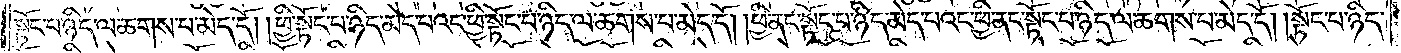སྟོང་པ་ཉིད་ལ་ཆགས་པ་མེད་དོ། །ཕྱི་སྟོང་པ་ཉིད་མེད་པའང་ཕྱི་སྟོང་པ་ཉིད་ལ་ཆགས་པ་མེད་དོ། །ཕྱི་ནང་སྟོང་པ་ཉིད་མེད་པའང་ཕྱི་ནང་སྟོང་པ་ཉིད་ལ་ཆགས་པ་མེད་དོ། །སྟོང་པ་ཉིད་
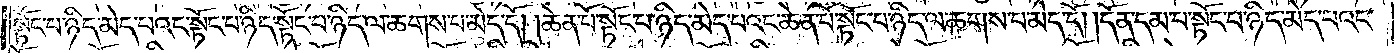སྟོང་པ་ཉིད་མེད་པའང་སྟོང་པ་ཉིད་སྟོང་པ་ཉིད་ལ་ཆགས་པ་མེད་དོ། །ཆེན་པོ་སྟོང་པ་ཉིད་མེད་པའང་ཆེན་པོ་སྟོང་པ་ཉིད་ལ་ཆགས་པ་མེད་དོ། །དོན་དམ་པ་སྟོང་པ་ཉིད་མེད་པའང་
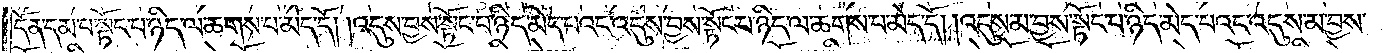དོན་དམ་པ་སྟོང་པ་ཉིད་ལ་ཆགས་པ་མེད་དོ། །འདུས་བྱས་སྟོང་པ་ཉིད་མེད་པའང་འདུས་བྱས་སྟོང་པ་ཉིད་ལ་ཆགས་པ་མེད་དོ། །འདུས་མ་བྱས་སྟོང་པ་ཉིད་མེད་པའང་འདུས་མ་བྱས་
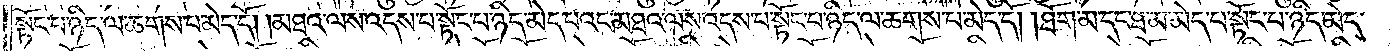སྟོང་པ་ཉིད་ལ་ཆགས་པ་མེད་དོ། །མཐའ་ལས་འདས་པ་སྟོང་པ་ཉིད་མེད་པའང་མཐའ་ལས་འདས་པ་སྟོང་པ་ཉིད་ལ་ཆགས་པ་མེད་དོ། །ཐོག་མ་དང་ཐ་མ་མེད་པ་སྟོང་པ་ཉིད་མེད་
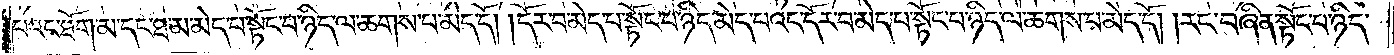པའང་ཐོག་མ་དང་ཐ་མ་མེད་པ་སྟོང་པ་ཉིད་ལ་ཆགས་པ་མེད་དོ། །དོར་བ་མེད་པ་སྟོང་པ་ཉིད་མེད་པའང་དོར་བ་མེད་པ་སྟོང་པ་ཉིད་ལ་ཆགས་པ་མེད་དོ། །རང་བཞིན་སྟོང་པ་ཉིད་
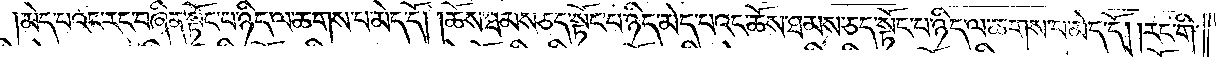མེད་པའང་རང་བཞིན་སྟོང་པ་ཉིད་ལ་ཆགས་པ་མེད་དོ། །ཆོས་ཐམས་ཅད་སྟོང་པ་ཉིད་མེད་པའང་ཆོས་ཐམས་ཅད་སྟོང་པ་ཉིད་ལ་ཆགས་པ་མེད་དོ། །རང་གི་
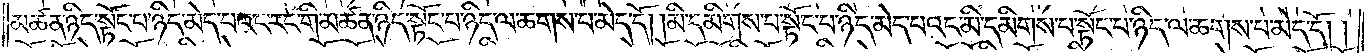མཚན་ཉིད་སྟོང་པ་ཉིད་མེད་པའང་རང་གི་མཚན་ཉིད་སྟོང་པ་ཉིད་ལ་ཆགས་པ་མེད་དོ། །མི་དམིགས་པ་སྟོང་པ་ཉིད་མེད་པའང་མི་དམིགས་པ་སྟོང་པ་ཉིད་ལ་ཆགས་པ་མེད་དོ། །
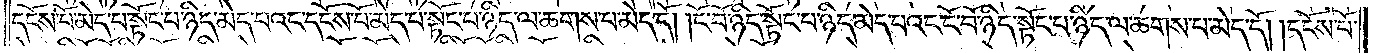དངོས་པོ་མེད་པ་སྟོང་པ་ཉིད་མེད་པའང་དངོས་པོ་མེད་པ་སྟོང་པ་ཉིད་ལ་ཆགས་པ་མེད་དོ། །ངོ་བོ་ཉིད་སྟོང་པ་ཉིད་མེད་པའང་ངོ་བོ་ཉིད་སྟོང་པ་ཉིད་ལ་ཆགས་པ་མེད་དོ། །དངོས་པོ་
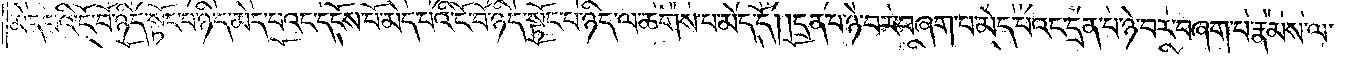མེད་པའི་ངོ་བོ་ཉིད་སྟོང་པ་ཉིད་མེད་པའང་དངོས་པོ་མེད་པའི་ངོ་བོ་ཉིད་སྟོང་པ་ཉིད་ལ་ཆགས་པ་མེད་དོ། །དྲན་པ་ཉེ་བར་བཞག་པ་མེད་པའང་དྲན་པ་ཉེ་བར་བཞག་པ་རྣམས་ལ་
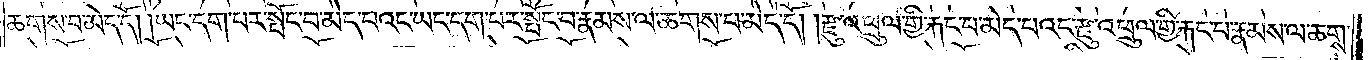ཆགས་པ་མེད་དོ། །ཡང་དག་པར་སྤོང་བ་མེད་པའང་ཡང་དག་པར་སྤོང་བ་རྣམས་ལ་ཆགས་པ་མེད་དོ། རྫུ་འཕྲུལ་གྱི་རྐང་པ་མེད་པའང་རྫུ་འཕྲུལ་གྱི་རྐང་པ་རྣམས་ལ་ཆགས་
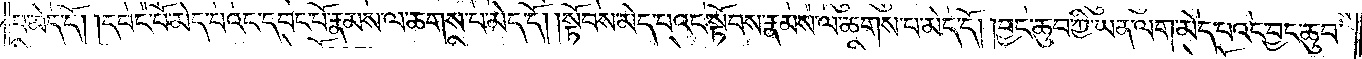པ་མེད་དོ། དབང་པོ་མེད་པའང་དབང་པོ་རྣམས་ལ་ཆགས་པ་མེད་དོ། །སྟོབས་མེད་པའང་སྟོབས་རྣམས་ལ་ཆགས་པ་མེད་དོ། །བྱང་ཆུབ་ཀྱི་ཡན་ལག་མེད་པའང་བྱང་ཆུབ་
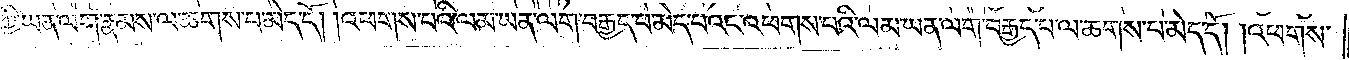ཀྱི་ཡན་ལག་རྣམས་ལ་ཆགས་པ་མེད་དོ། །འཕགས་པའི་ལམ་ཡན་ལག་བརྒྱད་པ་མེད་པའང་འཕགས་པའི་ལམ་ཡན་ལག་བརྒྱད་པ་ལ་ཆགས་པ་མེད་དོ། །འཕགས་
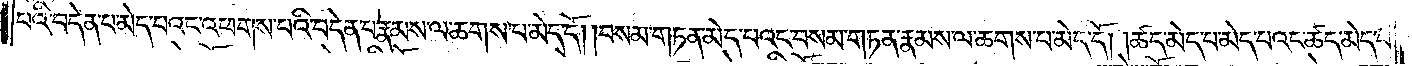པའི་བདེན་པ་མེད་པའང་འཕགས་པའི་བདེན་པ་རྣམས་ལ་ཆགས་པ་མེད་དོ། །བསམ་གཏན་མེད་པའང་བསམ་གཏན་རྣམས་ལ་ཆགས་པ་མེད་དོ། །ཚད་མེད་པ་མེད་པའང་ཚད་མེད་པ་
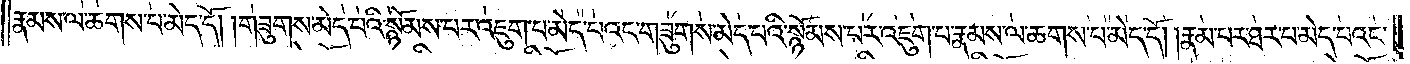རྣམས་ལ་ཆགས་པ་མེད་དོ། །གཟུགས་མེད་པའི་སྙོམས་པར་འཇུག་པ་མེད་པའང་གཟུགས་མེད་པའི་སྙོམས་པར་འཇུག་པ་རྣམས་ལ་ཆགས་པ་མེད་དོ། །རྣམ་པར་ཐར་པ་མེད་པའང་
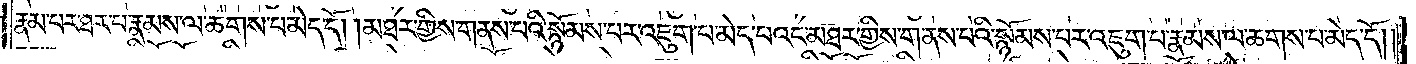རྣམ་པར་ཐར་པ་རྣམས་ལ་ཆགས་པ་མེད་དོ། །མཐར་གྱིས་གནས་པའི་སྙོམས་པར་འཇུག་པ་མེད་པའང་མཐར་གྱིས་གནས་པའི་སྙོམས་པར་འཇུག་པ་རྣམས་ལ་ཆགས་པ་མེད་དོ། །
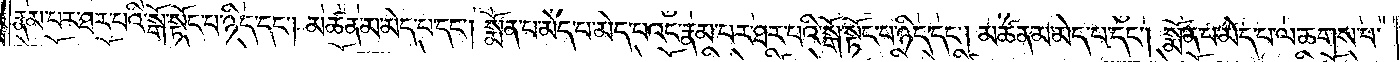རྣམ་པར་ཐར་པའི་སྒོ་སྟོང་པ་ཉིད་དང༌། མཚན་མ་མེད་པ་དང༌། སྨོན་པ་མེད་པ་མེད་པའང་རྣམ་པར་ཐར་པའི་སྒོ་སྟོང་པ་ཉིད་དང༌། མཚན་མ་མེད་པ་དང༌། སྨོན་པ་མེད་པ་ལ་ཆགས་པ་
